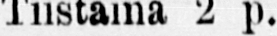Tiistaina 2 p. Helminkuuta.
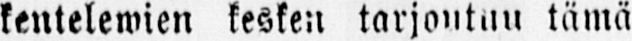lentelewien kesken tarjoutuu tämä
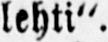lehti".
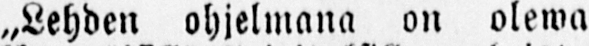„Lehden ohjelmana on olewa
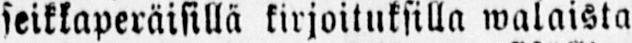seikkaperäisillä kirjoituksilla walaista
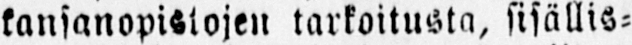kansanopistojen tarkoitusta, sisällis-
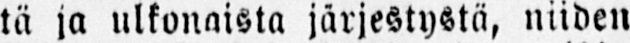tä ja ulkonaista järjestystä, niiden
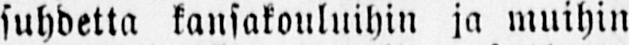suhdetta kansakouluihin ja muihin
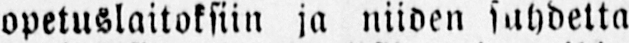opetuslaitoksiin ja niiden suhdetta
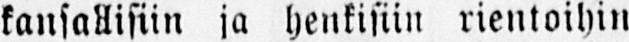kansallisiin ja henkisiin rientoihin
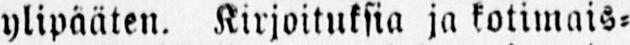ylipääten. Kirjoituksia ja kotimais-
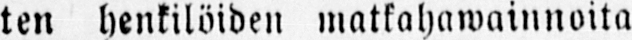ten henkilöiden matkahawainnoita
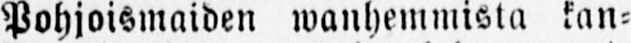Pohjoismaiden wanhemmista kan-
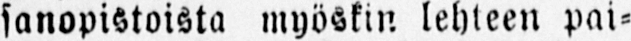sanopistoista myöskin lehteen pai-
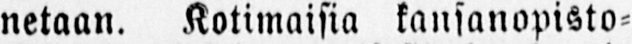netaan. Kotimaisia kansanopisto-
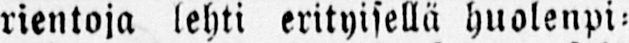rientoja lehti erityisellä huolenpi-
